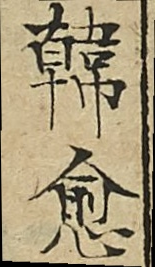韓愈
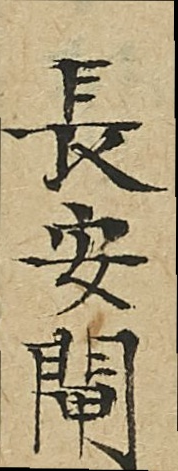長安閘
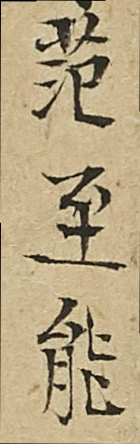范至能
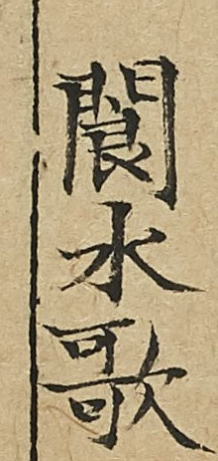閬水歌
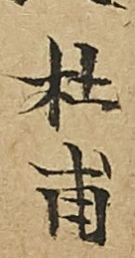杜甫
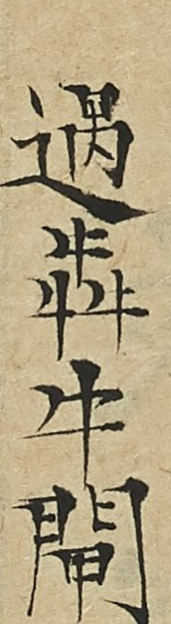過犇牛閘
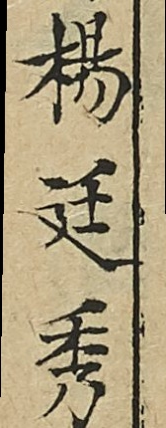楊廷秀
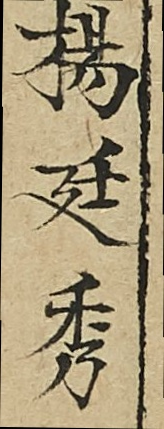楊廷秀
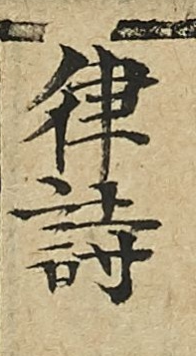律詩
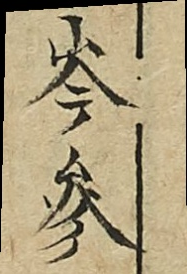岑參
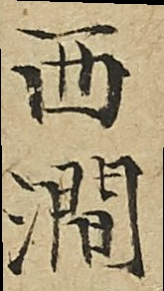西澗
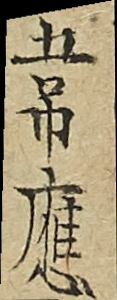韋應
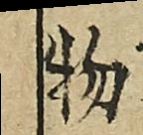物
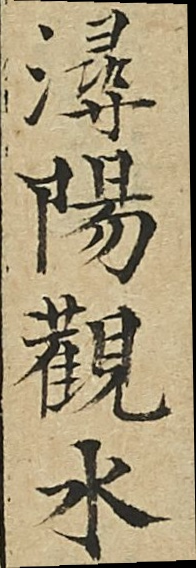潯陽觀水
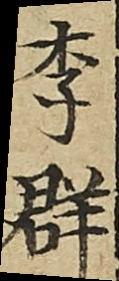李群
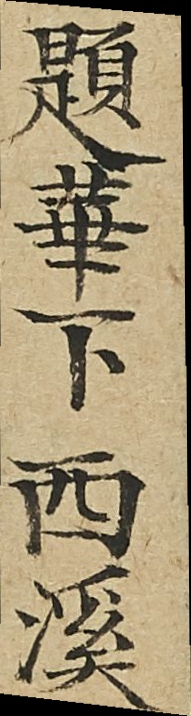題華下西溪
